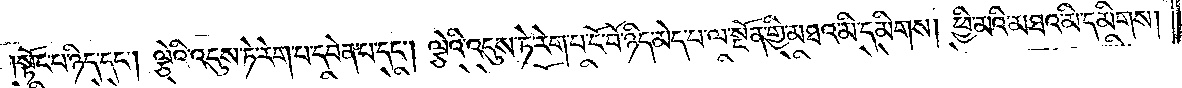སྟོང་པ་ཉིད་དང༌། ལྕེའི་འདུས་ཏེ་རེག་པ་དབེན་པ་དང༌། ལྕེའི་འདུས་ཏེ་རེག་པ་ངོ་བོ་ཉིད་མེད་པ་ལ་སྔོན་གྱི་མཐའ་མི་དམིགས། ཕྱི་མའི་མཐའ་མི་དམིགས།
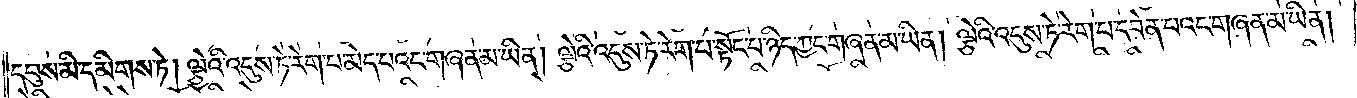དབུས་མི་དམིགས་ཏེ། ལྕེའི་འདུས་ཏེ་རེག་པ་མེད་པའང་གཞན་མ་ཡིན། ལྕེའི་འདུས་ཏེ་རེག་པ་སྟོང་པ་ཉིད་ཀྱང་གཞན་མ་ཡིན། ལྕེའི་འདུས་ཏེ་རེག་པ་དབེན་པའང་གཞན་མ་ཡིན།
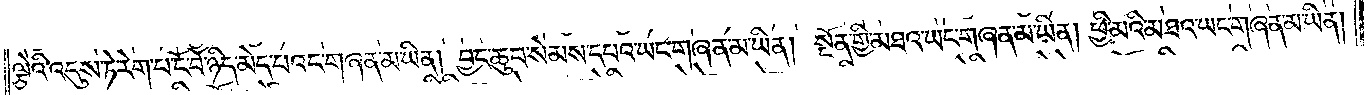ལྕེའི་འདུས་ཏེ་རེག་པ་ངོ་བོ་ཉིད་མེད་པའང་གཞན་མ་ཡིན། བྱང་ཆུབ་སེམས་དཔའ་ཡང་གཞན་མ་ཡིན། སྔོན་གྱི་མཐའ་ཡང་གཞན་མ་ཡིན། ཕྱི་མའི་མཐའ་ཡང་གཞན་མ་ཡིན། །
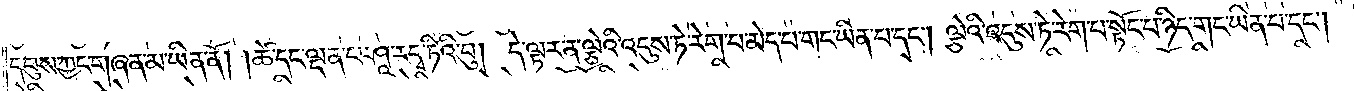དབུས་ཀྱང་གཞན་མ་ཡིན་ནོ། །ཚེ་དང་ལྡན་པ་ཤཱ་རདྭ་ཏིའི་བུ། དེ་ལྟར་ན་ལྕེའི་འདུས་ཏེ་རེག་པ་མེད་པ་གང་ཡིན་པ་དང༌། ལྕེའི་འདུས་ཏེ་རེག་པ་སྟོང་པ་ཉིད་གང་ཡིན་པ་དང༌།
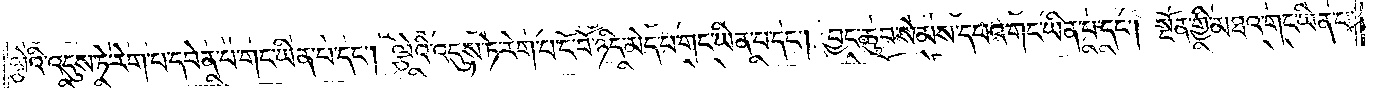ལྕེའི་འདུས་ཏེ་རེག་པ་དབེན་པ་གང་ཡིན་པ་དང༌། ལྕེའི་འདུས་ཏེ་རེག་པ་ངོ་བོ་ཉིད་མེད་པ་གང་ཡིན་པ་དང༌། བྱང་ཆུབ་སེམས་དཔའ་གང་ཡིན་པ་དང༌། སྔོན་གྱི་མཐའ་གང་ཡིན་པ་
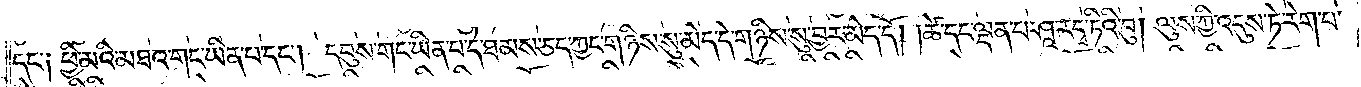དང་༑ ཕྱི་མའི་མཐའ་གང་ཡིན་པ་དང༌། དབུས་གང་ཡིན་པ་དེ་ཐམས་ཅད་ཀྱང་གཉིས་སུ་མེད་དེ་གཉིས་སུ་བྱར་མེད་དོ། །ཚེ་དང་ལྡན་པ་ཤཱ་རདྭ་ཏིའི་བུ། ལུས་ཀྱི་འདུས་ཏེ་རེག་པ་
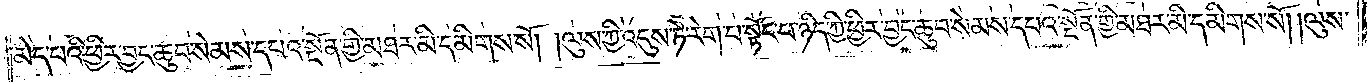མེད་པའི་ཕྱིར་བྱང་ཆུབ་སེམས་དཔའ་སྔོན་གྱི་མཐར་མི་དམིགས་སོ། །ལུས་ཀྱི་འདུས་ཏེ་རེག་པ་སྟོང་པ་ཉིད་ཀྱི་ཕྱིར་བྱང་ཆུབ་སེམས་དཔའ་སྔོན་གྱི་མཐར་མི་དམིགས་སོ། །ལུས་
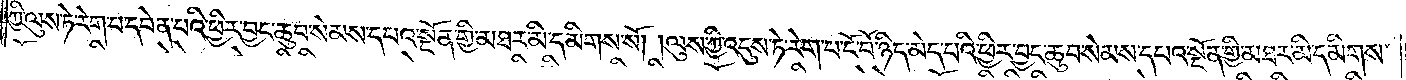ཀྱི་འདུས་ཏེ་རེག་པ་དབེན་པའི་ཕྱིར་བྱང་ཆུབ་སེམས་དཔའ་སྔོན་གྱི་མཐར་མི་དམིགས་སོ། །ལུས་ཀྱི་འདུས་ཏེ་རེག་པ་ངོ་བོ་ཉིད་མེད་པའི་ཕྱིར་བྱང་ཆུབ་སེམས་དཔའ་སྔོན་གྱི་མཐར་མི་དམིགས་
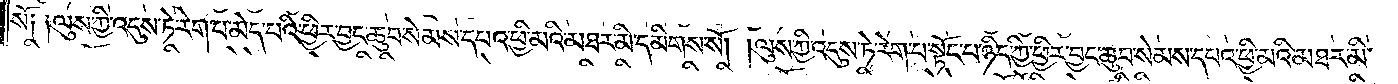སོ༑ ༑ལུས་ཀྱི་འདུས་ཏེ་རེག་པ་མེད་པའི་ཕྱིར་བྱང་ཆུབ་སེམས་དཔའ་ཕྱི་མའི་མཐར་མི་དམིགས་སོ། །ལུས་ཀྱི་འདུས་ཏེ་རེག་པ་སྟོང་པ་ཉིད་ཀྱི་ཕྱིར་བྱང་ཆུབ་སེམས་དཔའ་ཕྱི་མའི་མཐར་མི་
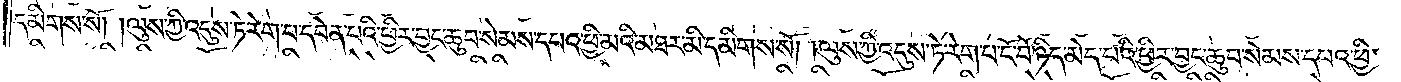དམིགས་སོ། །ལུས་ཀྱི་འདུས་ཏེ་རེག་པ་དབེན་པའི་ཕྱིར་བྱང་ཆུབ་སེམས་དཔའ་ཕྱི་མའི་མཐར་མི་དམིགས་སོ། །ལུས་ཀྱི་འདུས་ཏེ་རེག་པ་ངོ་བོ་ཉིད་མེད་པའི་ཕྱིར་བྱང་ཆུབ་སེམས་དཔའ་ཕྱི་
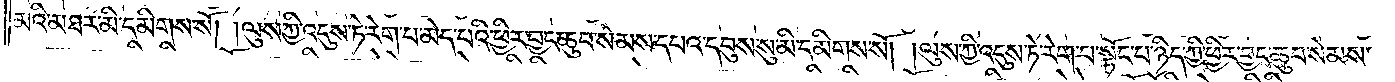མའི་མཐར་མི་དམིགས་སོ། །ལུས་ཀྱི་འདུས་ཏེ་རེག་པ་མེད་པའི་ཕྱིར་བྱང་ཆུབ་སེམས་དཔའ་དབུས་སུ་མི་དམིགས་སོ། །ལུས་ཀྱི་འདུས་ཏེ་རེག་པ་སྟོང་པ་ཉིད་ཀྱི་ཕྱིར་བྱང་ཆུབ་སེམས་
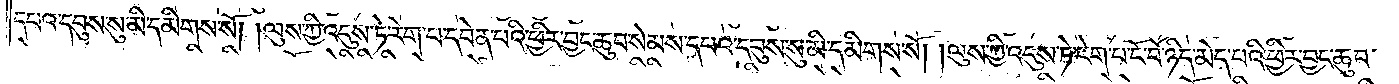དཔའ་དབུས་སུ་མི་དམིགས་སོ། །ལུས་ཀྱི་འདུས་ཏེ་རེག་པ་དབེན་པའི་ཕྱིར་བྱང་ཆུབ་སེམས་དཔའ་དབུས་སུ་མི་དམིགས་སོ། །ལུས་ཀྱི་འདུས་ཏེ་རེག་པ་ངོ་བོ་ཉིད་མེད་པའི་ཕྱིར་བྱང་ཆུབ་
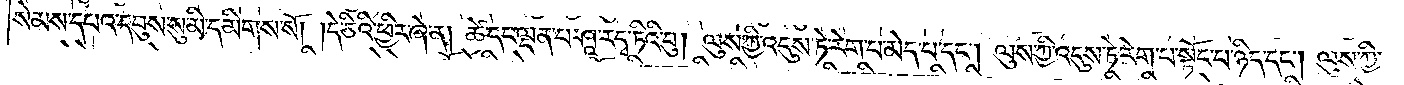སེམས་དཔའ་དབུས་སུ་མི་དམིགས་སོ། །དེ་ཅིའི་ཕྱིར་ཞེ་ན། ཚེ་དང་ལྡན་པ་ཤཱ་རདྭ་ཏིའི་བུ། ལུས་ཀྱི་འདུས་ཏེ་རེག་པ་མེད་པ་དང༌། ལུས་ཀྱི་འདུས་ཏེ་རེག་པ་སྟོང་པ་ཉིད་དང༌། ལུས་ཀྱི་
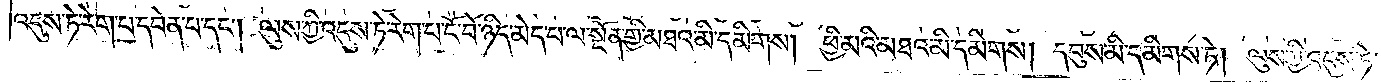འདུས་ཏེ་རེག་པ་དབེན་པ་དང༌། ལུས་ཀྱི་འདུས་ཏེ་རེག་པ་ངོ་བོ་ཉིད་མེད་པ་ལ་སྔོན་གྱི་མཐའ་མི་དམིགས། ཕྱི་མའི་མཐའ་མི་དམིགས། དབུས་མི་དམིགས་ཏེ། ལུས་ཀྱི་འདུས་ཏེ་
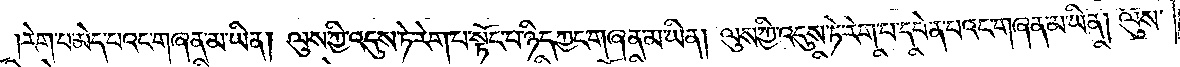རེག་པ་མེད་པའང་གཞན་མ་ཡིན། ལུས་ཀྱི་འདུས་ཏེ་རེག་པ་སྟོང་པ་ཉིད་ཀྱང་གཞན་མ་ཡིན། ལུས་ཀྱི་འདུས་ཏེ་རེག་པ་དབེན་པའང་གཞན་མ་ཡིན། ལུས་
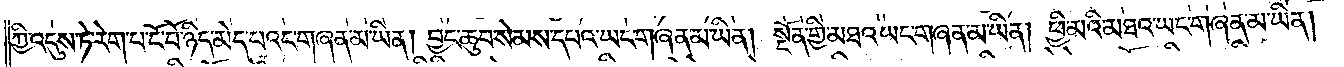ཀྱི་འདུས་ཏེ་རེག་པ་ངོ་བོ་ཉིད་མེད་པའང་གཞན་མ་ཡིན། བྱང་ཆུབ་སེམས་དཔའ་ཡང་གཞན་མ་ཡིན། སྔོན་གྱི་མཐའ་ཡང་གཞན་མ་ཡིན། ཕྱི་མའི་མཐའ་ཡང་གཞན་མ་ཡིན།
